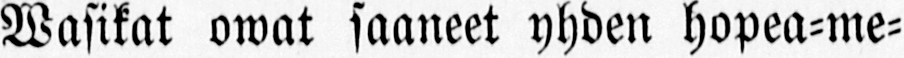Wasikat owat saaneet yhden hopea-me-
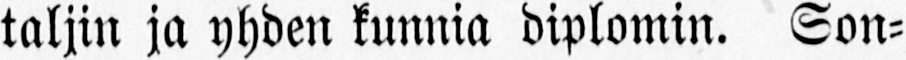taljin ja yhden kunnia diplomin. Son-
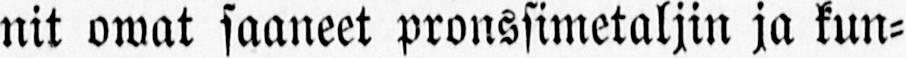nit owat saaneet pronssimetaljin ja kun-
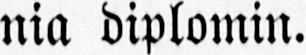nia diplomin.
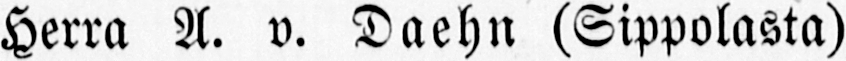Herra A. v. Daehn (Sippolasta)
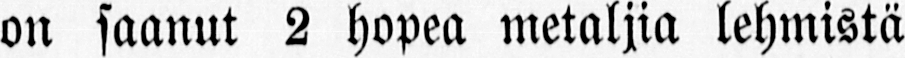on saanut 2 hopea metaljia lehmistä
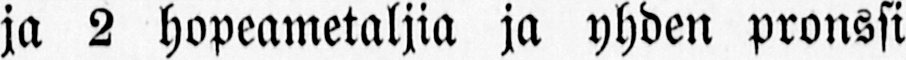ja 2 hopeametaljia ja yhden pronssi
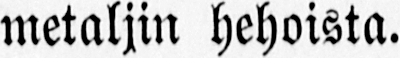metaljin hehoista.
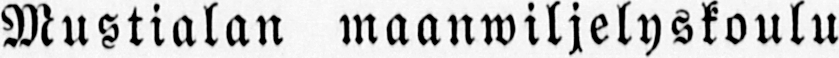Mustialan maanwiljelyskoulu
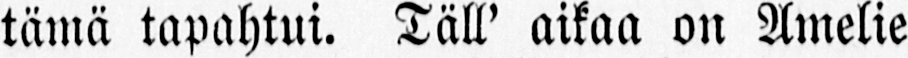tämä tapahtui. Täll’ aikaa on Amelie
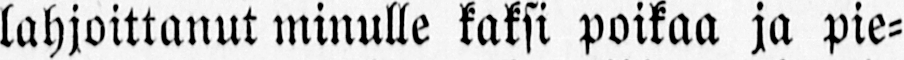lahjoittanut minulle kaksi poikaa ja pie-
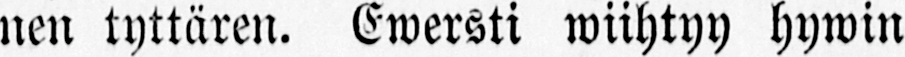nen tyttären. Ewersti wiihtyy hywin
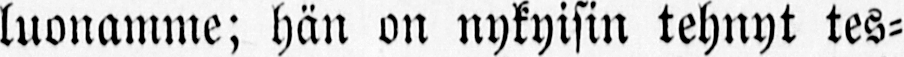luonamme; hän on nykyisin tehnyt tes-
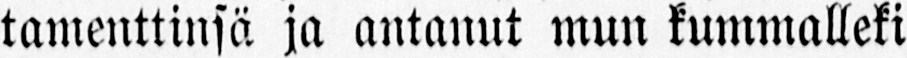tamenttinsä ja antanut mun kummalleki
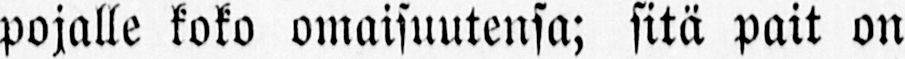pojalle koko omaisuutensa; sitä pait on
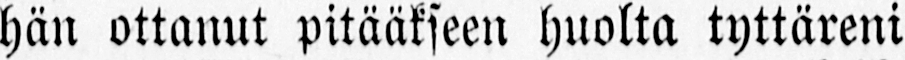hän ottanut pitääkseen huolta tyttäreni
